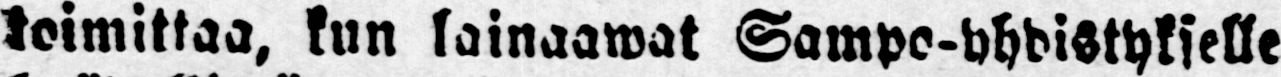toimittaa, kun lainaawat Sampo-yhdistykselle
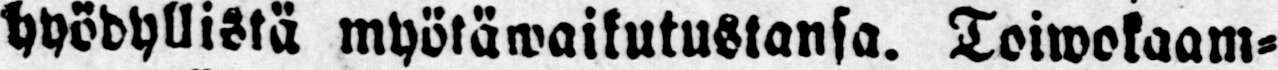hyödyllistä myötäwaikutustansa. Toiwokaam-
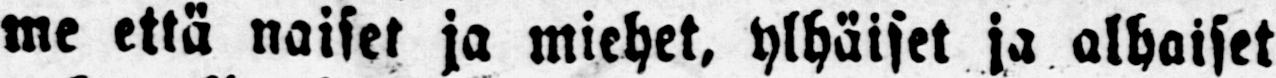me että naiset ja miehet, ylhäiset ja alhaiset
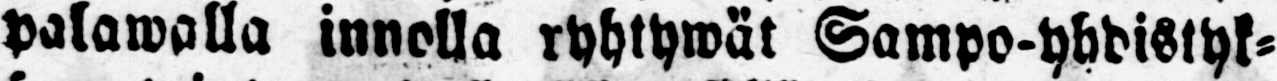palawalla innolla ryhtywät Sampo-yhdistyk-
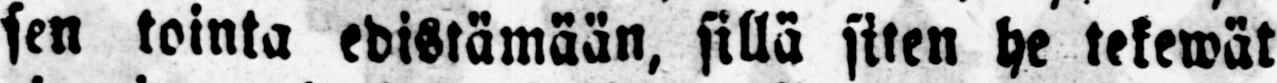sen tointa edistämään, sillä siten he tekewät
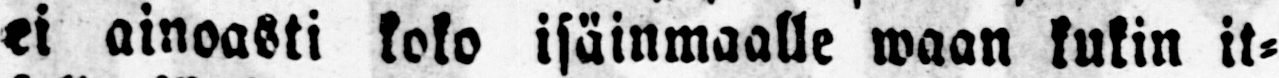ei ainoasti koko isäinmaalle waan kukin it-
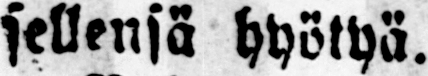sellensä hyötyä.
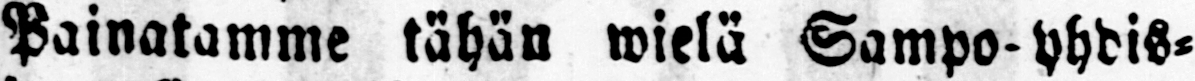Painatamme tähän wielä Sampo-yhdis-
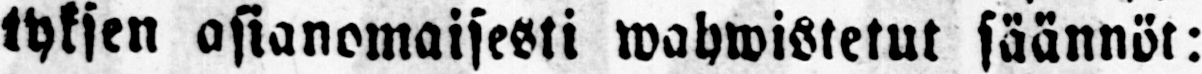tyksen asianomaisesti wahwistetut säännöt:
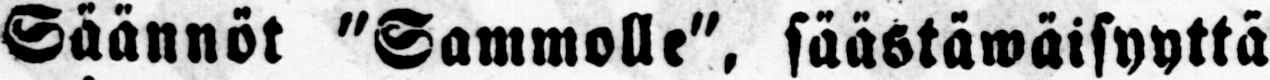Säännöt "Sammolle", säästäwäisyyttä
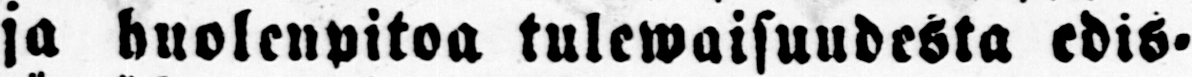ja huolenpitoa tulewaisuudesta edis-
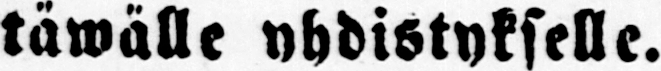täwälle yhdistykselle.
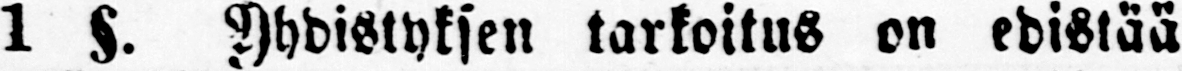1 §. Yhdistyksen tarkoitus on edistää
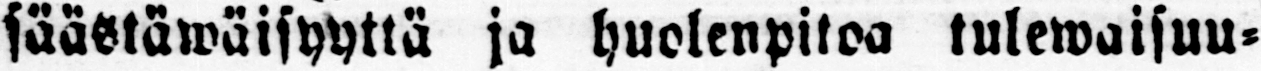säästäwäisyyttä ja huolenpitoa tulewaisuu-
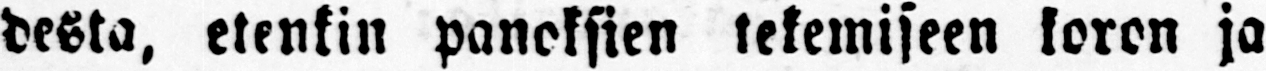desta, etenkin panoksien tekemiseen koron ja
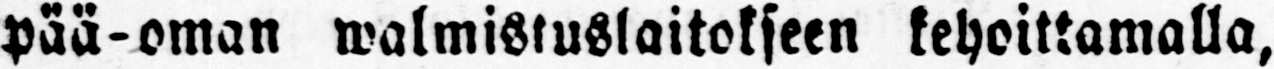pää-oman walmistuslaitokseen kehoittamalla,
